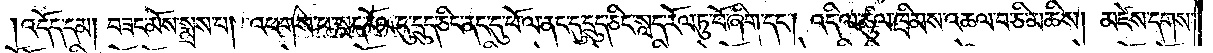འདོད་དམ། བཟང་མོས་སྨྲས་པ། འཕགས་པ་སླད་རོལ་དུ་དྲུད་ཅིང་ནང་དུ་ཕོ་ལ་ནང་དུ་དྲུད་ཅིང་སླད་རོལ་ཏུ་ཕོ་ཞིག་དང༌། འདི་ལ་ཚུལ་ཁྲིམས་འཆལ་བ་ཅི་མཆིས། མཛེས་དགས་
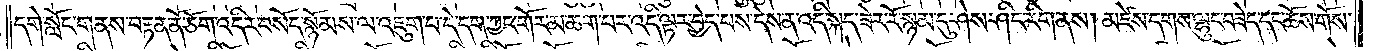དགེ་སློང་གནས་བརྟན་ནོ་ཅོག་འདིར་བསོད་སྙོམས་ལ་འཇུག་པ་དེ་དག་ཀྱང་གོར་མ་ཆག་པར་འདི་ལྟར་བྱེད་པས་དེས་ན་འདི་སྐད་ཟེར་རོ་སྙམ་དུ་ཤེས་ཤིང་རིག་ནས། མཛེས་དགས་ལྷུང་བཟེད་དང་ཆོས་གོས་
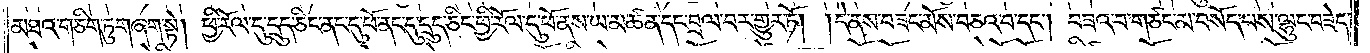མཐའ་གཅིག་ཏུ་གཞག་སྟེ། ཕྱི་རོལ་དུ་དྲུད་ཅིང་ནང་དུ་ཕོ་ནང་དུ་དྲུད་ཅིང་ཕྱི་རོལ་དུ་ཕོ་ནས་ཡ་མཚན་དང་བྲལ་བར་གྱུར་ཏོ། །དེ་ནས་བཟང་མོས་བཅའ་བ་དང༌། བཟའ་བ་གཙང་མ་བསོད་པས་ལྷུང་བཟེད་
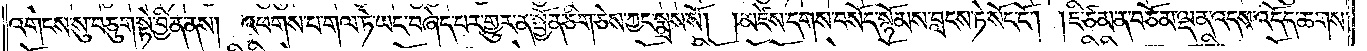འགེངས་སུ་བཅུག་སྟེ་བྱིན་ནས། འཕགས་པ་གལ་ཏེ་ཡང་བཞེད་པར་གྱུར་ན་སྤྱོན་ཅིག་ཅེས་ཀྱང་སྨྲས་སོ། །མཛེས་དགས་བསོད་སྙོམས་བླངས་ཏེ་སོང་ངོ༌། །ཇི་ཙམ་ན་བཅོམ་ལྡན་འདས་འདོད་ཆགས་
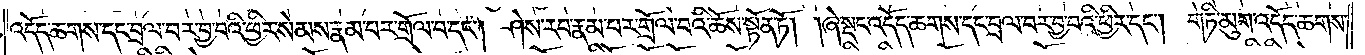འདོད་ཆགས་དང་བྲལ་བར་བྱ་བའི་ཕྱིར་སེམས་རྣམ་པར་གྲོལ་བ་དང༌། ཤེས་རབ་རྣམ་པར་གྲོལ་བའི་ཆོས་སྟོན་ཏོ། །ཞེ་སྡང་འདོད་ཆགས་དང་བྲལ་བར་བྱ་བའི་ཕྱིར་དང༌། གཏི་མུག་འདོད་ཆགས་
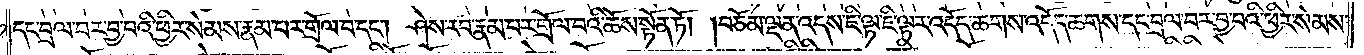དང་བྲལ་བར་བྱ་བའི་ཕྱིར་སེམས་རྣམ་པར་གྲོལ་བ་དང༌། ཤེས་རབ་རྣམ་པར་གྲོལ་བའི་ཆོས་སྟོན་ཏོ། །བཅོམ་ལྡན་འདས་ཇི་ལྟ་ཇི་ལྟར་འདོད་ཆགས་འདོད་ཆགས་དང་བྲལ་བར་བྱ་བའི་ཕྱིར་སེམས་
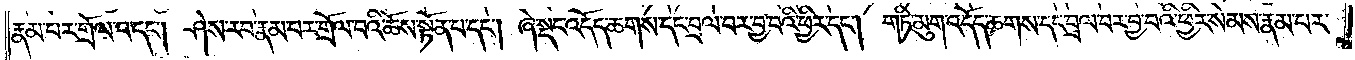རྣམ་པར་གྲོལ་བ་དང༌། ཤེས་རབ་རྣམ་པར་གྲོལ་བའི་ཆོས་སྟོན་པ་དང༌། ཞེ་སྡང་འདོད་ཆགས་དང་བྲལ་བར་བྱ་བའི་ཕྱིར་དང༌། གཏི་མུག་འདོད་ཆགས་དང་བྲལ་བར་བྱ་བའི་ཕྱིར་སེམས་རྣམ་པར་
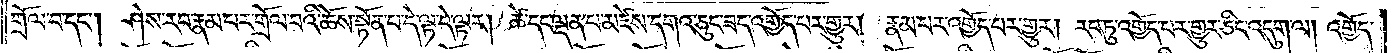གྲོལ་བ་དང༌། ཤེས་རབ་རྣམ་པར་གྲོལ་བའི་ཆོས་སྟོན་པ་དེ་ལྟ་དེ་ལྟར། ཚེ་དང་ལྡན་པ་མཛེས་དགའ་ཅུང་ཟད་འགྱོད་པར་གྱུར། རྣམ་པར་འགྱོད་པར་གྱུར། རབ་ཏུ་འགྱེད་པར་གྱུར་ཅིང་འདུག་ལ། འགྱོད་
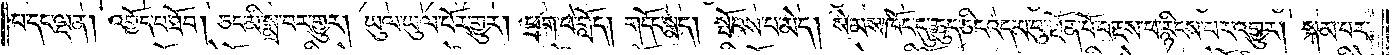པ་དང་ལྡན། འགྱོད་པ་ཐོབ། ཅང་མི་སྨྲ་བར་གྱུར། ཡུལ་ཡུལ་པོར་གྱུར། ཕྲག་པ་གློད། གདོང་སྨད། སྤོབས་པ་མེད། སེམས་ཁོང་དུ་ཆུད་ཅིང་འདམ་བུ་སྔོན་པོ་བརྔས་པ་རྙིངས་པར་འགྱུར། སྐམ་པར་
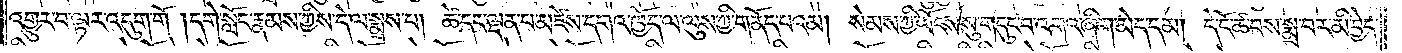འགྱུར་བ་ལྟར་འདུག་གོ །དགེ་སློང་རྣམས་ཀྱིས་དེ་ལ་སྨྲས་པ། ཚེ་དང་ལྡན་པ་མཛེས་དགའ་ཁྱོད་ལ་ལུས་ཀྱི་གནོད་པའམ། སེམས་ཀྱི་ཡོངས་སུ་གདུང་བ་འགའ་ཞིག་མེད་དམ། དེ་ངོ་ཚ་བས་སྨྲ་བར་མི་བྱེད་
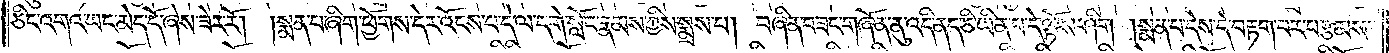ཅིང་འགའ་ཡང་མེད་དོ་ཞེས་ཟེར་རོ། །སྨན་པ་ཞིག་ཕྱོགས་དེར་འོངས་པ་དེ་ལ་དགེ་སློང་རྣམས་ཀྱིས་སྨྲས་པ། བཞིན་བཟང་གཞོན་ནུ་འདི་ནད་ཅི་ཡིན་པ་དེ་ལྟོས་ཤིག །སྨན་པ་དེས་དེ་བརྟག་པར་བརྩམས་
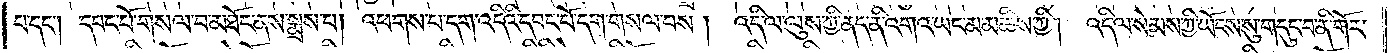པ་དང༌། དབང་པོ་གསལ་བ་མཐོང་ནས་སྨྲས་པ། འཕགས་པ་དག་འདིའི་དབང་པོ་དག་གསལ་བས། འདི་ལ་ལུས་ཀྱི་ནད་ནི་འགའ་ཡང་མ་མཆིས་ཀྱི། འདི་ལ་སེམས་ཀྱི་ཡོངས་སུ་གདུང་བ་ནི་གོར་
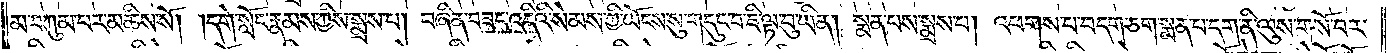མ་བཀུམ་པར་མཆིས་སོ། །དགེ་སློང་རྣམས་ཀྱིས་སྨྲས་པ། བཞིན་བཟང་འདིའི་སེམས་ཀྱི་ཡོངས་སུ་གདུང་བ་ཇི་ལྟ་བུ་ཡིན། སྨན་པས་སྨྲས་པ། འཕགས་པ་བདག་ཅག་སྨན་པ་དག་ནི་ལུས་གསོ་བར་
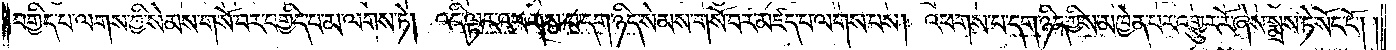བགྱིད་པ་ལགས་ཀྱི་སེམས་གསོ་བར་བགྱིད་པ་མ་ལགས་ཏེ། འདི་ལྟར་འཕགས་པ་དག་ཉིད་སེམས་གསོ་བར་མཛད་པ་ལགས་པས། འཕགས་པ་དག་ཉིད་ཀྱིས་མཁྱེན་པར་འགྱུར་རོ་ཞེས་སྨྲས་ཏེ་སོང་ངོ༌། །
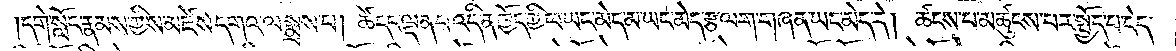དགེ་སློང་རྣམས་ཀྱིས་མཛེས་དགའ་ལ་སྨྲས་པ། ཚེ་དང་ལྡན་པ་འདི་ན་ཁྱོད་ཀྱི་ཕ་ཡང་མེད་མ་ཡང་མེད་རྩ་ལག་གཞན་ཡང་མེད་དེ། ཚངས་པ་མཚུངས་པར་སྤྱོད་པ་ངེད་
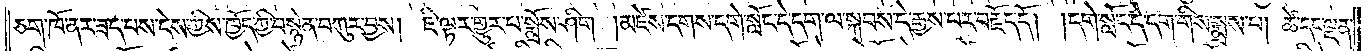ཅག་ཁོ་ནར་ཟད་པས་ངེས་ཀྱིས་ཁྱོད་ཀྱི་བསྙེན་བཀུར་བྱས། ཇི་ལྟར་གྱུར་པ་སྨྲོས་ཤིག །མཛེས་དགས་དགེ་སློང་དེ་དག་ལ་སྐབས་དེ་རྒྱས་པར་བརྗོད་དོ། །དགེ་སློང་དེ་དག་གིས་སྨྲས་པ། ཚེ་དང་ལྡན་
